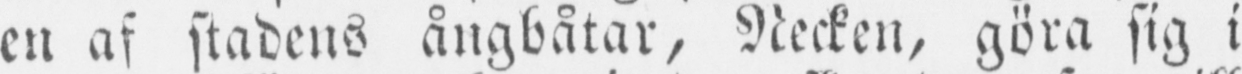en af stadens ångbåtar, Necken, göra sig i
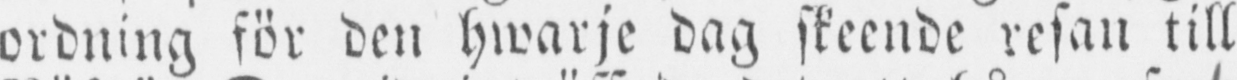ordning för den hwarje dag skeende resan till
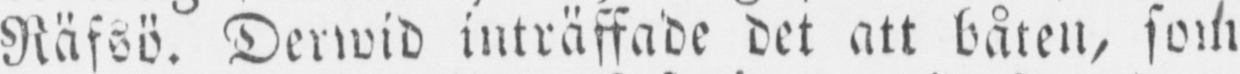Räfsö. Derwid inträffade det att båten, som
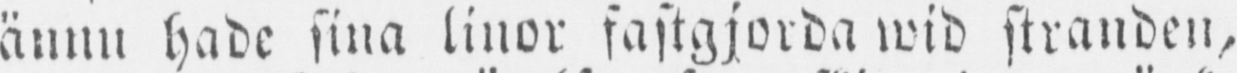ännu hade sina linor fastgjorda wid stranden,
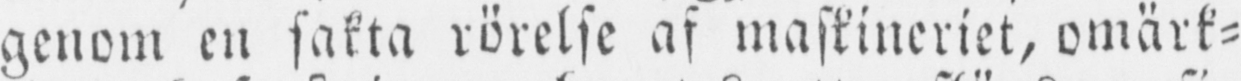genom en sakta rörelse af maskineriet, omärk-
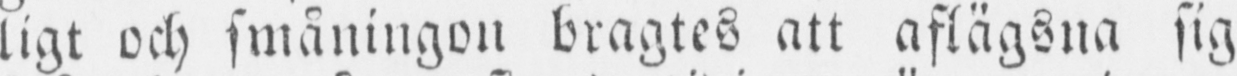ligt och småningon bragtes att aflägsna sig
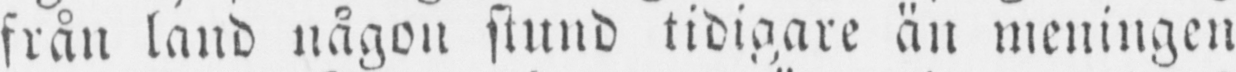från land någon stund tidigare än meningen
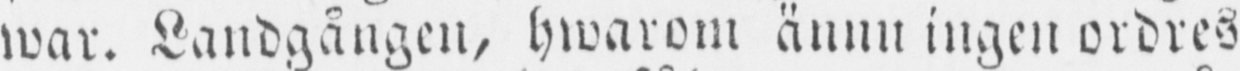war. Landgången, hwarom ännu ingen ordres
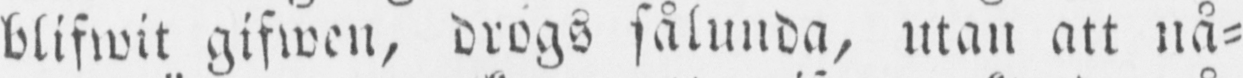blifwit gifwen, drogs sålunda, utan att nå-
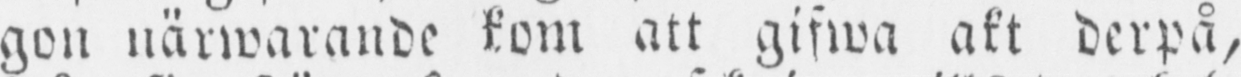gon närwarande kom att gifwa akt derpå,
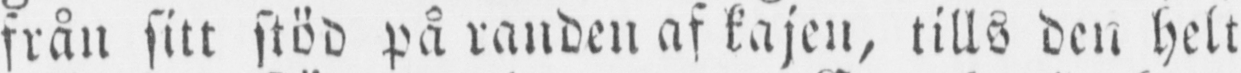från sitt stöd på randen af kajen, tills den helt
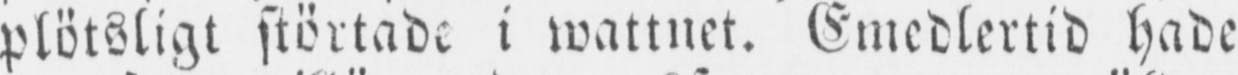plötsligt störtade i wattnet. Emedlertid hade
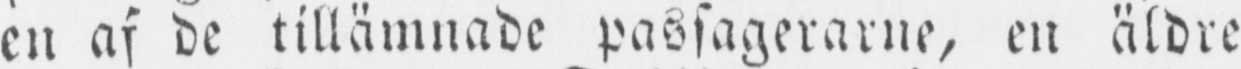en af de tillämnade passagerarne, en äldre
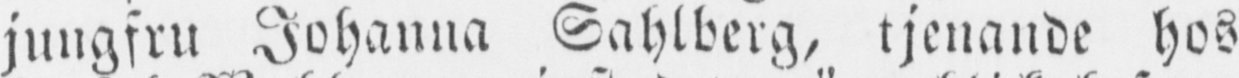jungfru Johanna Sahlberg, tjenande hos
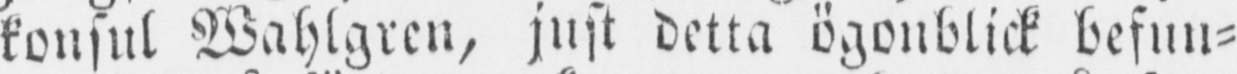konsul Wahlgren, just detta ögonblick befun-
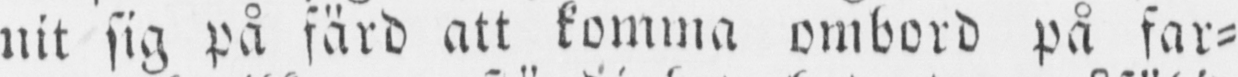nit sig på färd att komma ombord på far-
